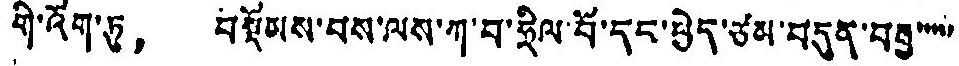གི་འོག་ཏུ， བསྡོམས་པས་ལས་ཀ་བ་ཧྲིལ་བོ་དང་ཕྱེད་ཙམ་བདུན་བརྒྱ་་་་་་
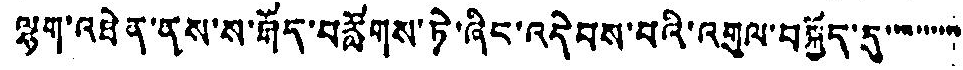ལྕག་འཐེན་ནས་ས་རྒོད་བརློགས་ཏེ་ཞིང་འདེབས་པའི་འགུལ་བསྐྱོད་དུ་་་་་་་་་་
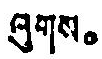ཞུགས。
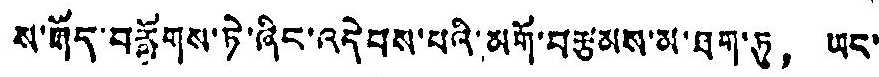ས་རྒོད་བརློགས་ཏེ་ཞིང་འདེབས་པའི་མགོ་བརྩམས་མ་ཐག་ཏུ， ཡང་
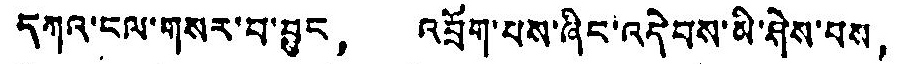དཀའ་ངལ་གསར་བ་བྱུང， འབྲོག་པས་ཞིང་འདེབས་མི་ཤེས་པས，
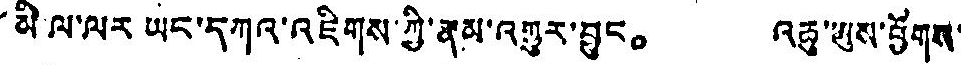མི ལ་ལར ཡང་དཀའ་འཇིགས་ཀྱི་རྣམ་འགྱུར་བྱུང。 འཆུ་ཡུས་ཕྱོགས་
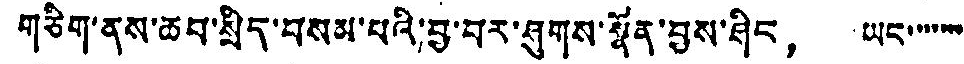གཅིག་ནས་ཆབ་སྲིད་བསམ་པའི་བྱ་བར་ཤུགས་སྣོན་བྱས་ཤིང， ཡང་་་་་་་
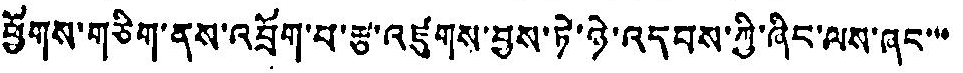ཕྱོགས་གཅིག་ནས་འབྲོག་པ་རྩ་འཛུགས་བྱས་ཏེ་ཉེ་འདབས་ཀྱི་ཞིང་ལས་ཞང་་་
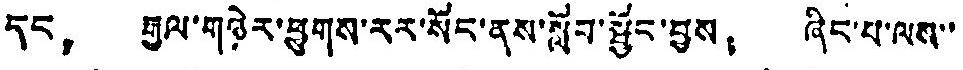དང， རྒྱལ་གཉེར་ཕྱུགས་རར་སོང་ནས་སློབ་སྦྱོང་བྱས； ཞིང་པ་ལས་་
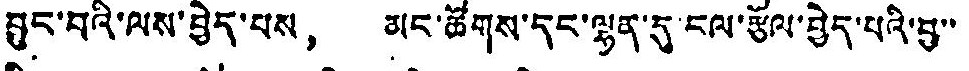བྱུང་བའི་ལས་བྱེད་པས， མང་ཚོགས་དང་ལྷན་དུ་ངལ་རྩོལ་བྱེད་པའི་བྱ་་
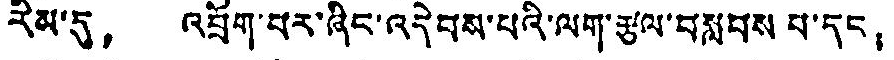རིམ་དུ， འབྲོག་པར་ཞིང་འདེབས་པའི་ལག་རྩལ་བསླབས པ་དང；
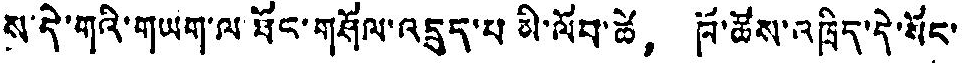སུ་དེ་གའི་གཡག་ལ་ཐོང་གཤོལ་འདྲུད་པ མི་ལོབ་ཚེ， ཁོ་ཚོས་འཁྲིད་དེ་སོང་།
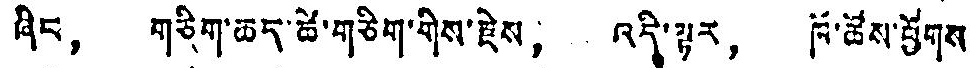ཞིང， གཅིག་ཆད་ཚེ་གཅིག་གིས་རྗེས， འདི་ལྟར， ཁོ་ཚོས་ཕྱོགས་
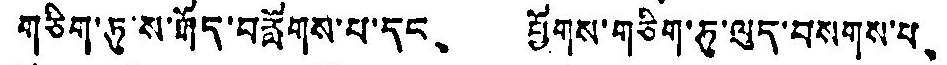གཅིག་ཏུ་ས་རྒོད་བརློགས་པ་དང、 ཕྱོགས་གཅིག་ཏུ་ལུད་བསགས་པ、
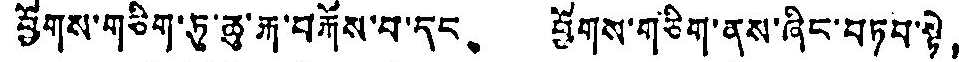ཕྱོགས་གཅིག་ཏུ་ཆུ་རྐ་བརྐོས་པ་དང、 ཕྱོགས་གཅིག་ནས་ཞིང་བཏབ་སྟེ；
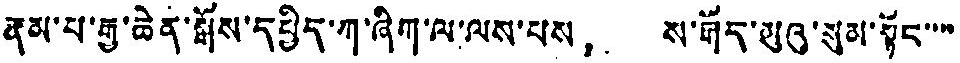རྣམ་པ་རྒྱ་ཆེན་སྒོས་དཔྱིད་ཀ་ཞིག་ལ་ལས་པས， ས་རྒོད་མུའུ་སུམ་སྟོང་་་་
